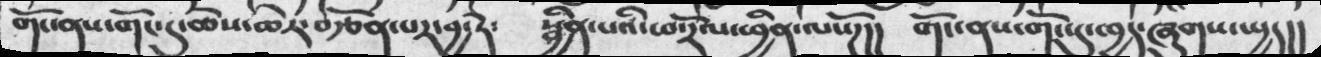གོང་ནས་གོང་དུ་ཆེས་ཆེར་བརྩོན་པར་བྱ་ཏེ༴  སྦྱིན་པའི་ཕ་རོལ་ཕྱིན་ལསོཌ།།  གོང་ནས་གོང་དུ་ཁྱད་ཞུགས་སྤྱད།།
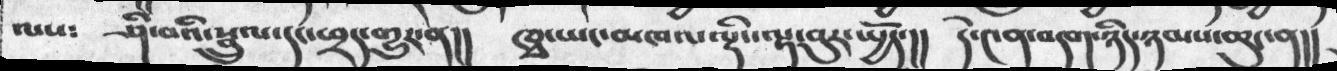ལས༴  ཤི་བའི་སྦྲུལ་དང་ཕྲད་གྱུར་ན།།  ཁྭ་ཡང་མཁལ་ལྡིང་ལྟ་བུར་སྤྱོད་།།  དེ་༤ན་བདག་ཉིད་ཉམས་ཆུང་ན།།
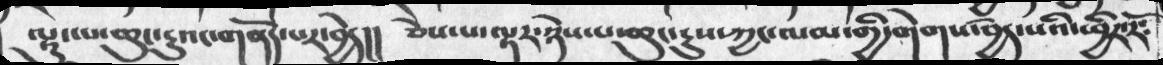ལྟུང་པ་ཆུང་ངུའང་གནདོ་པར་བྱེད།།  ཅེས་པ་ལྟར་ཉེས་པ་ཆུང་ངུས་ཀྱང་ལམ་གྱི་གེགས་བྱེད་པའི་ཕྱིར་རོ༴
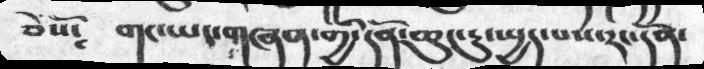ཅེསོ༴  གང་ཡང་གཞན་གྱི་དོན་ཆུང་ངུ་སྤྱད་པས་རང་དོན་
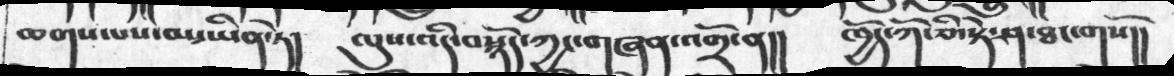ཆགས་པས་མ་ཡིན་ཏེ།  ལུས་འདི་བསྙོད་ཀྱང་གཞན་འགྲོ་ན།།  ཁྱོད་ཀོ་ཅི་སྟེ་ཤ་ཐང་གསོ།།
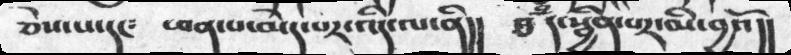ཅེས་པ་དང༴ ཕན་པ་མེད་པར་འདི་ལ་ནི།། ཐཾད་སྦྱིན་པར་མི་བྱའོ།།
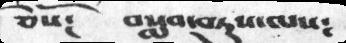ཅེསོ༴ བསླབ་བཏུས་ལས༴
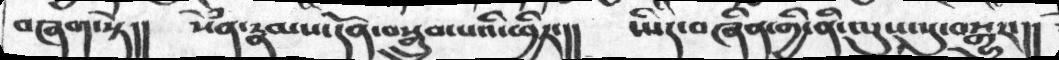བཞག་སྟེ།།  སེཾན་རྣམས་དོན་བསྒྲུབ་པའི་ཕྱིར་།།  ཡིད་བཞིན་གྱི་ནི་ལུས་སུ་བསྒྱུར་།།
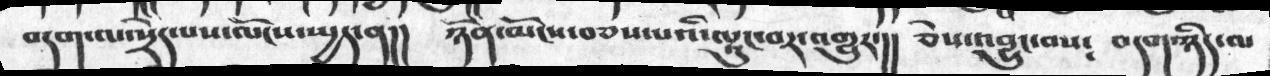བདག་ལ་སྲེད་པས་ལོངས་སྤྱད་ན།།  ཉོན་མོངས་བཅས་པའི་ལྟུང་བར་འགྱུར་།།  ཅེས་འབྱུང་བས༴  བདག་ཉིད་ལ
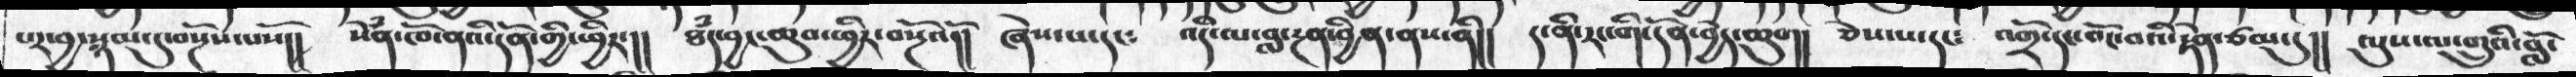པར་བྱ་སྙམ་དུ་བསྔོས་པསོ།།  སེཾན་ཁོ་ནའི་དོན་གྱི་ཕྱིར་།།  ཐཾད་བྱང་ཆུབ་ཕྱིར་བསྔོའོ།།  ཞེས་པ་དང༴  འདི་ལ་བླ་རྔན་བྱིན་ནས་ནི།།  ད་ནི་རང་གི་དོན་བྱེད་ཆུག།  ཅེས་པ་དང༴  འགྲོ་དང་བོང་བའི་རྟེན་ཙམ་དུ།།  ལུས་ལ་གྲུའི་བློ་
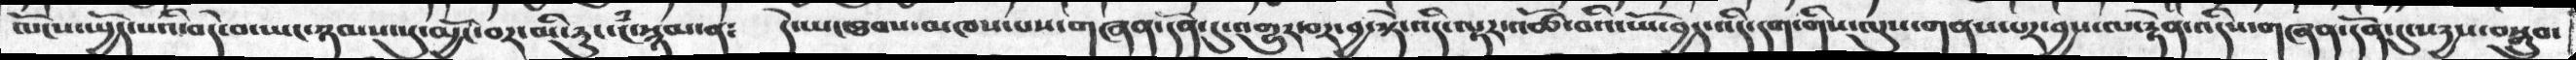ལོངས་སྤྱོད་པའི་བདེ་བ་ཡང་ཉམས་སུ་མྱོང་བར་མི་རུང་ངཾ་སྙམ་ན༴  དེ་ཡང་ཐབས་མཁས་པས་གཞན་དོན་དུ་འགྱུར་བར་བྱ་སྟེ་འདི་ལྟར་འཚོ་བའི་ཡོ་བྱད་འདི་དག་གིས་ལུས་གནས་པར་བྱས་ལ་རྟེན་འདིས་གཞན་དོན་དུ་སདྱས་བསྒྲུབ་
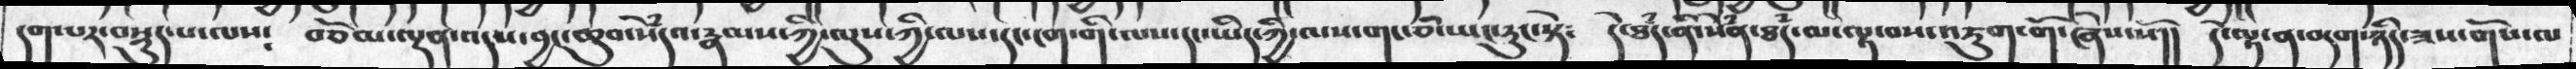དག་པར་བསྡུད་པ་ལས༴  བཅོམ་ལྡན་འདས་བྱང་ཆུབ་སེཾདའ་རྣམས་ཀྱི་ལུས་ཀྱི་ལས་དང་ངག་གི་ལས་དང་ཡིད་ཀྱི་ལས་གང་ཅི་ཡང་རུང་སྟེ༴  དེ་ཐཾད་སེཾན་ཐཾད་མ་ལྟ་བས་འཇུག་གོ་ཞེས་སོ།། དེ་ལྟ་ན་བདག་ཉིད་ཟས་གོས་ལ
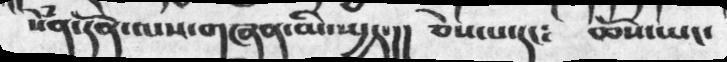སེཾན་དོན་ལས་གཞན་མི་སྤྱད་།། ཅེས་པ་དང༴ ཆོས་ཡང་
